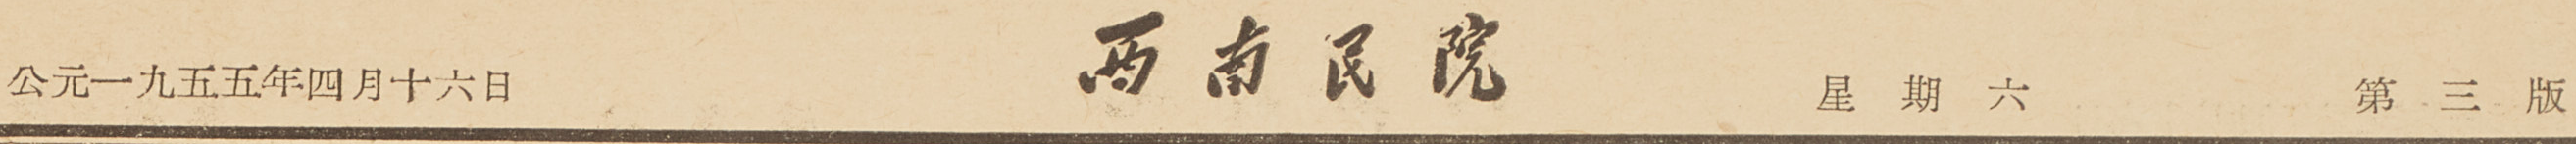公元一九五五年四月十六日 西南民院 星期六 第三版
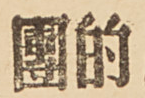團的
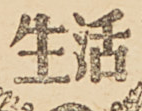生活
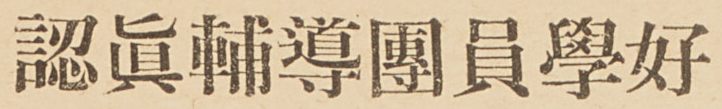認眞輔導團員學好
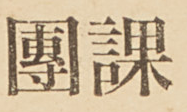團課
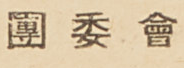團委會
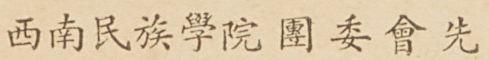西南民族學院團委會先
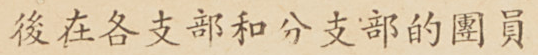後在各支部和分支部的團員
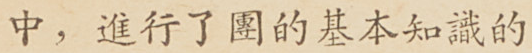中，進行了團的基本知識的
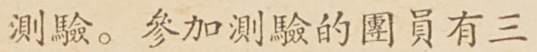測驗。參加測驗的團員有三
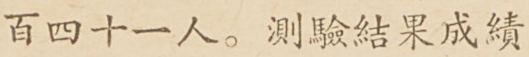百四十一人。測驗結果成績
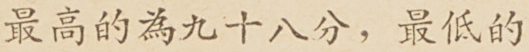最高的為九十八分，最低的
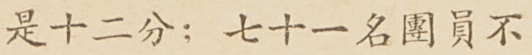是十二分：七十一名團員不
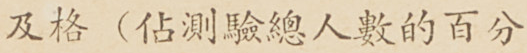幾個（佔測驗總人數的百分
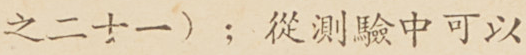之二十一）；從測驗中可以
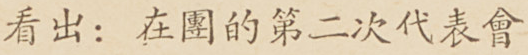看出：在團的第二次代表會
